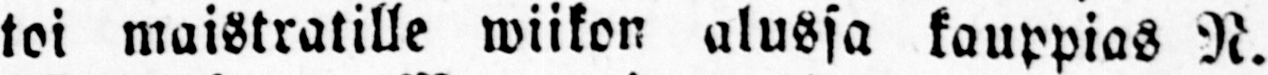toi maistratille wiikon alussa kauppias N.
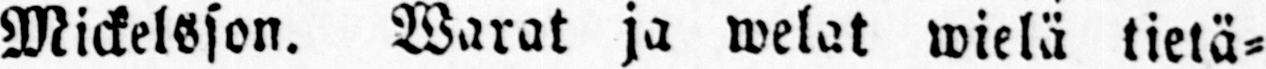Mickelsson. Warat ja welat wielä tietä-
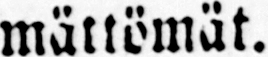mättömät.
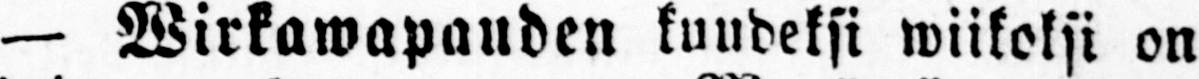— Wirkawapauden kuudeksi wiikoksi on
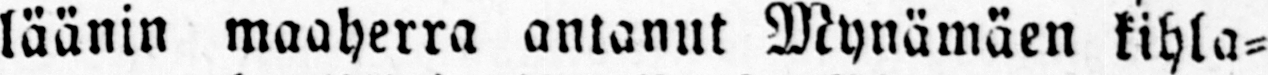läänin maaherra antanut Mynämäen kihla-
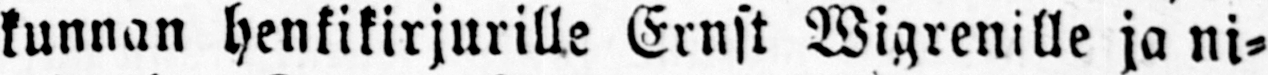kunnan henkikirjurille Ernst Wigrenille ja ni-
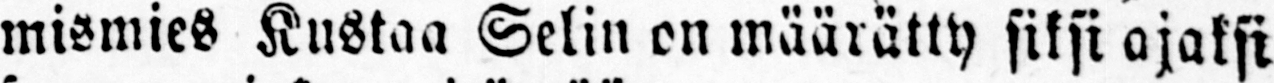mismies Kustaa Selin on määrätty siksi ajaksi
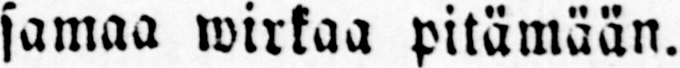samaa wirkaa pitämään.
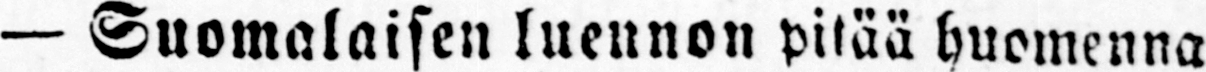— Suomalaisen luennon pitää huomenna
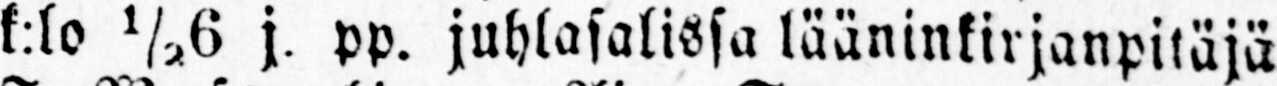kilo ½6 j. pp. juhlasalissa lääninkirjanpitäjä
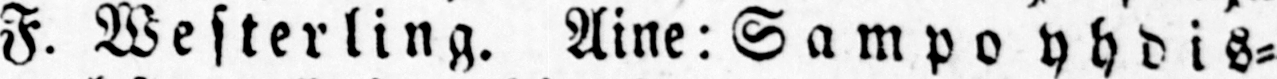F. Westerling. Aine: Sampo yhdis-
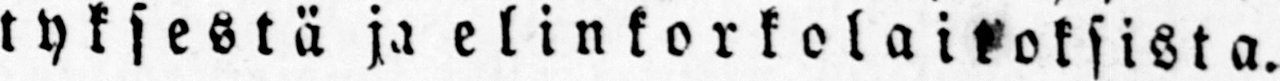tyksestä ja elinkorkolaitoksista.
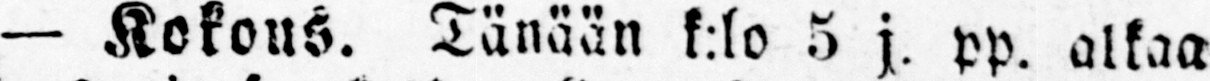— Kokous. Tänään k:lo 5 j. pp. aikaa
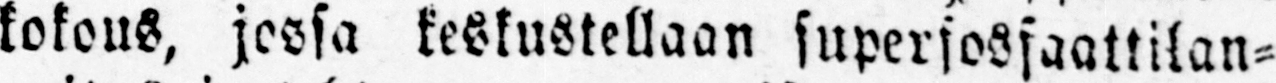kokous, jossa keskustellaan superfosfaattilan-
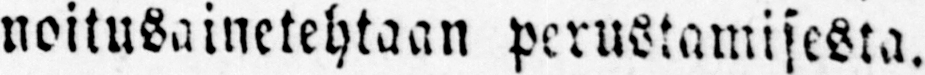noitusainetehtaan perustamisesta.
